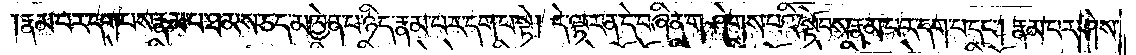རྣམ་པར་དག་པས་རྣམ་པ་ཐམས་ཅད་མཁྱེན་པ་ཉིད་རྣམ་པར་དག་པ་སྟེ། དེ་ལྟར་ན་དེ་བཞིན་གཤེགས་པའི་སྟོབས་རྣམ་པར་དག་པ་དང༌། རྣམ་པར་ཤེས་
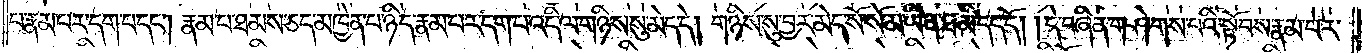པ་རྣམ་པར་དག་པ་དང༌། རྣམ་པ་ཐམས་ཅད་མཁྱེན་པ་ཉིད་རྣམ་པར་དག་པ་འདི་ལ་གཉིས་སུ་མེད་དེ། གཉིས་སུ་བྱེར་མེད་སོ་སོ་མ་ཡིན་ཐ་མི་དད་དོ། །དེ་བཞིན་གཤེགས་པའི་སྟོབས་རྣམ་པར་
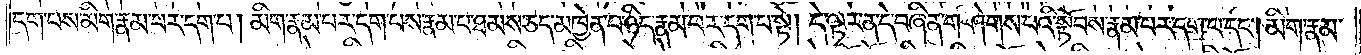དག་པས་མིག་རྣམ་པར་དག་པ། མིག་རྣམ་པར་དག་པས་རྣམ་པ་ཐམས་ཅད་མཁྱེན་པ་ཉིད་རྣམ་པར་དག་པ་སྟེ། དེ་ལྟར་ན་དེ་བཞིན་གཤེགས་པའི་སྟོབས་རྣམ་པར་དག་པ་དང༌། མིག་རྣམ་
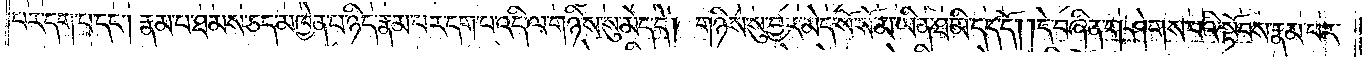པར་དག་པ་དང༌། རྣམ་པ་ཐམས་ཅད་མཁྱེན་པ་ཉིད་རྣམ་པར་དག་པ་འདི་ལ་གཉིས་སུ་མེད་དེ། གཉིས་སུ་བྱར་མེད་སོ་སོ་མ་ཡིན་ཐ་མི་དད་དོ། །དེ་བཞིན་གཤེགས་པའི་སྟོབས་རྣམ་པར་
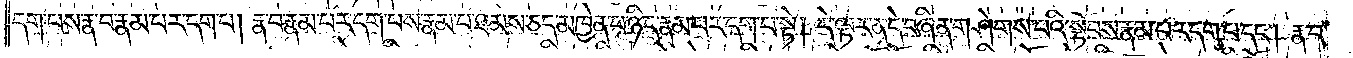དག་པས་རྣ་བ་རྣམ་པར་དག་པ། རྣ་བ་རྣམ་པར་དག་པས་རྣམ་པ་ཐམས་ཅད་མཁྱེན་པ་ཉིད་རྣམ་པར་དག་པ་སྟེ། དེ་ལྟར་ན་དེ་བཞིན་གཤེགས་པའི་སྟོབས་རྣམ་པར་དག་པ་དང༌། རྣ་བ་
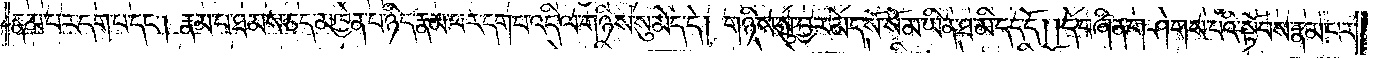རྣམ་པར་དག་པ་དང༌། རྣམ་པ་ཐམས་ཅད་མཁྱེན་པ་ཉིད་རྣམ་པར་དག་པ་འདི་ལ་གཉིས་སུ་མེད་དེ། གཉིས་སུ་བྱར་མེད་སོ་སོ་མ་ཡིན་ཐ་མི་དད་དོ། །དེ་བཞིན་གཤེགས་པའི་སྟོབས་རྣམ་པར་
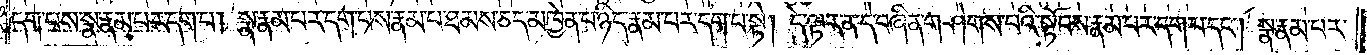དག་པས་སྣ་རྣམ་པར་དག་པ། སྣ་རྣམ་པར་དག་པས་རྣམ་པ་ཐམས་ཅད་མཁྱེན་པ་ཉིད་རྣམ་པར་དག་པ་སྟེ། དེ་ལྟར་ན་དེ་བཞིན་གཤེགས་པའི་སྟོབས་རྣམ་པར་དག་པ་དང༌། སྣ་རྣམ་པར་
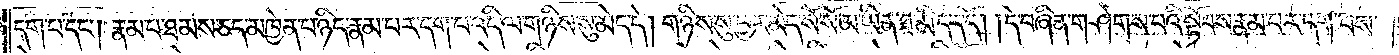དག་པ་དང༌། རྣམ་པ་ཐམས་ཅད་མཁྱེན་པ་ཉིད་རྣམ་པར་དག་པ་འདི་ལ་གཉིས་སུ་མེད་དེ། གཉིས་སུ་བྱར་མེད་སོ་སོ་མ་ཡིན་ཐ་མི་དད་དོ། །དེ་བཞིན་གཤེགས་པའི་སྟོབས་རྣམ་པར་དག་པས་
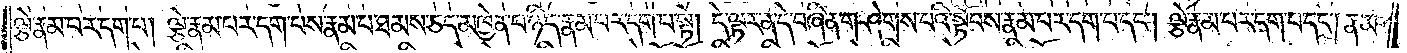ལྕེ་རྣམ་པར་དག་པ། ལྕེ་རྣམ་པར་དག་པས་རྣམ་པ་ཐམས་ཅད་མཁྱེན་པ་ཉིད་རྣམ་པར་དག་པ་སྟེ། དེ་ལྟར་ན་དེ་བཞིན་གཤེགས་པའི་སྟོབས་རྣམ་པར་དག་པ་དང༌། ལྕེ་རྣམ་པར་དག་པ་དང༌། རྣམ་
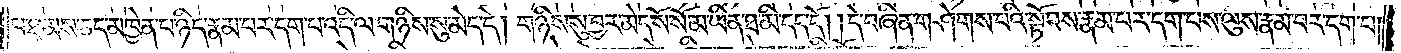པ་ཐམས་ཅད་མཁྱེན་པ་ཉིད་རྣམ་པར་དག་པ་འདི་ལ་གཉིས་སུ་མེད་དེ། གཉིས་སུ་བྱར་མེད་སོ་སོ་མ་ཡིན་ཐ་མི་དད་དོ། །དེ་བཞིན་གཤེགས་པའི་སྟོབས་རྣམ་པར་དག་པས་ལུས་རྣམ་པར་དག་པ།
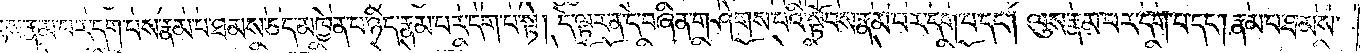ལུས་རྣམ་པར་དག་པས་རྣམ་པ་ཐམས་ཅད་མཁྱེན་པ་ཉིད་རྣམ་པར་དག་པ་སྟེ། དེ་ལྟར་ན་དེ་བཞིན་གཤེགས་པའི་སྟོབས་རྣམ་པར་དག་པ་དང༌། ལུས་རྣམ་པར་དག་པ་དང༌། རྣམ་པ་ཐམས་
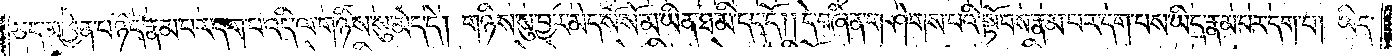ཅད་མཁྱེན་པ་ཉིད་རྣམ་པར་དག་པ་འདི་ལ་གཉིས་སུ་མེད་དེ། གཉིས་སུ་བྱར་མེད་སོ་སོ་མ་ཡིན་ཐ་མི་དད་དོ། །དེ་བཞིན་གཤེགས་པའི་སྟོབས་རྣམ་པར་དག་པས་ཡིད་རྣམ་པར་དག་པ། ཡིད་
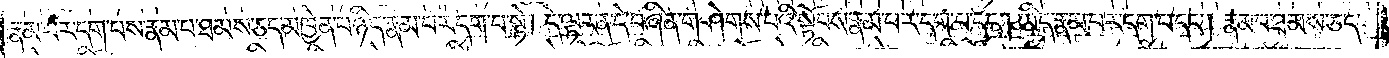རྣམ་པར་དག་པས་རྣམ་པ་ཐམས་ཅད་མཁྱེན་པ་ཉིད་རྣམ་པར་དག་པ་སྟེ། དེ་ལྟར་ན་དེ་བཞིན་གཤེགས་པའི་སྟོབས་རྣམ་པར་དག་པ་དང༌། ཡིད་རྣམ་པར་དག་པ་དང༌། རྣམ་པ་ཐམས་ཅད་
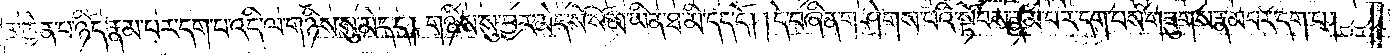མཁྱེན་པ་ཉིད་རྣམ་པར་དག་པ་འདི་ལ་གཉིས་སུ་མེད་དེ། གཉིས་སུ་བྱར་མེད་སོ་སོ་མ་ཡིན་ཐ་མི་དད་དོ། །དེ་བཞིན་གཤེགས་པའི་སྟོབས་རྣམ་པར་དག་པས་གཟུགས་རྣམ་པར་དག་པ།
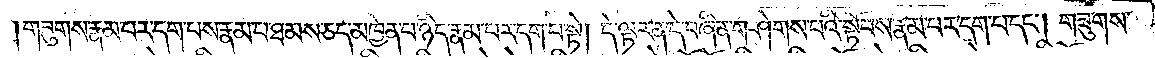གཟུགས་རྣམ་པར་དག་པས་རྣམ་པ་ཐམས་ཅད་མཁྱེན་པ་ཉིད་རྣམ་པར་དག་པ་སྟེ། དེ་ལྟར་ན་དེ་བཞིན་གཤེགས་པའི་སྟོབས་རྣམ་པར་དག་པ་དང༌། གཟུགས་
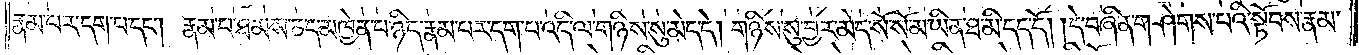རྣམ་པར་དག་པ་དང༌། རྣམ་པ་ཐམས་ཅད་མཁྱེན་པ་ཉིད་རྣམ་པར་དག་པ་འདི་ལ་གཉིས་སུ་མེད་དེ། གཉིས་སུ་བྱར་མེད་སོ་སོ་མ་ཡིན་ཐ་མི་དད་དོ། །དེ་བཞིན་གཤེགས་པའི་སྟོབས་རྣམ་
